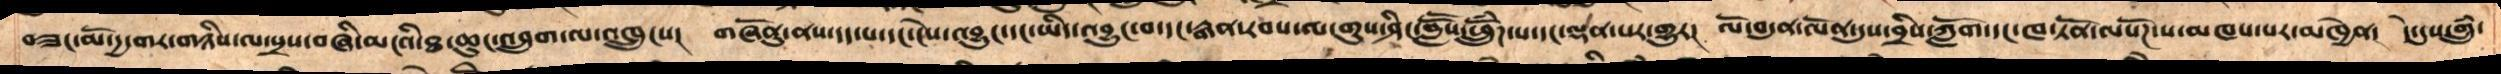བཟང་མོ་དྱ་གར་གཉིས་ལ་སྲས་བཞི་མངའི་ཐ་ཆུང་འབྲུག་ལ་འཁྲུངས།   གཞོནུ་ནས་དད་པ་དང་ངེས་འབྱུང་དང་ཡིད་འབྱུང་བ་དང་རྒན་རབས་ལ་གུས་ཤིང་བླཽས་ཕྲོུཾཌ་པ་དང་ལྡན་པར་གྱུར།  ལོ་བདུན་ལོན་དུས་བྲིས་ཀློག་དང་ཁ་ཏོན་ལསོཌ་པ་མཁས་པར་མཁྱེན།  དེ་དུས་གྲུཾ་
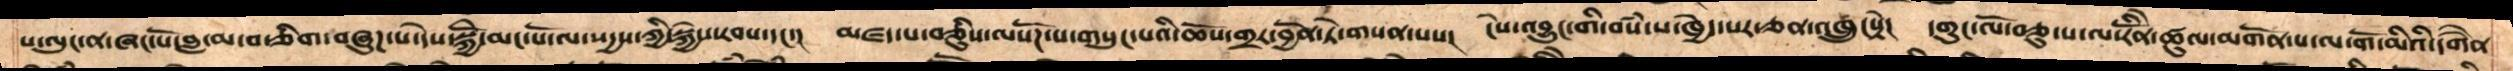པ་ལུང་ན་ཞང་པོ་བླ་མ་བ་ཅིག་བཞུཌ་པ་དེས་སྐྱེོ་མང་པོ་ལ་སདྱས་ཀྱི་སྐྱེས་རབས་དང་།    མཛད་པ་བཅིུས་ལསོཌ་པ་གསུང་པའི་ཆོས་གྲར་བྱོན་ཏེ་གསན་པས།   ངེས་འབྱུང་གི་བསཾ་པ་ཁྱེད་སར་ཅན་འཁྲུངསྟེ།  དགུང་ལོ་བཅུ་པ་ལ་རིནོེ་ཚུལ་མགོན་པ་ལ་གོ་མིའི་དགཻན
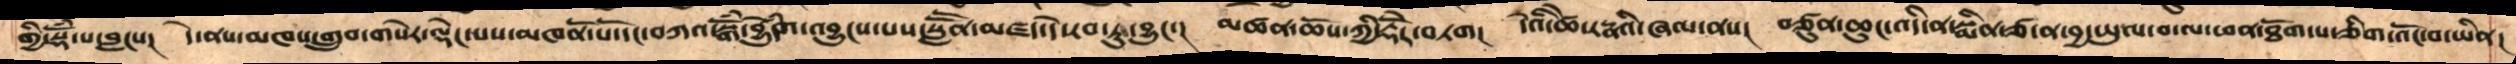གྱི་སྡོཾ་པ་བླངས།   དེ་ནས་མཁས་གྲུབ་གསེར་ལྡེང་པས་མཁོན་པོ་དང་བཀའ་སྒོཾ་བྱེུདའཾ་འབྱུངས་པས་སླཽན་མཛད་དེ་རབ་ཏུ་བྱུང་།  མཚན་ཆོས་ཀྱི་རྡོེར་བཏག།  དེའི་ཚེ་རཏྣའི་ཞལ་ནས།  བཙུན་ཆུང་འདི་ན་སྨིན་ཙ་ན་བྱ་ཡུལ་བ་ལ་ཕན་ཐོག་པ་ཅིག་འོང་བ་ཡིན།
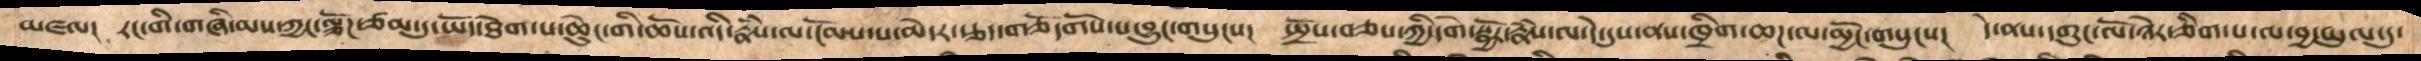མཛལ།   རང་གི་གཞི་མས་ཀྱང་ལྕོཌ་ཙམ་དུ་ཡོད་ཐེག་པ་ཆེུང་གི་ཆོས་འདི་རྣཾས་ལ་ངོམས་པ་མེདར་རྩད་གཅོདགོས་པ་བྱུང་གསུངས།    སྤྲོས་བཅས་ཀྱི་དགེ་སྦྱོར་རྣཾས་ལ་དེ་དུས་ནས་ཁྲིག་ཆཌ་ལ་མྱོང་གསུངས།   དེ་ནས་དགུང་ལོ་ཉེར་ཅིག་པ་ལ་བྱ་ཡུལ་དུ་
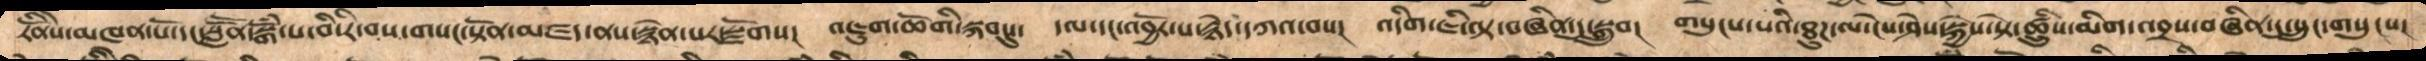རིནོེས་མཁན་པོ་དང་སླཽན་སྒོཾ་པ་བི་རི་བས་གསང་སྟོན་མཛད་ནས་སྙེན་པར་སྫོགས།   འཇུག་ཆོགི་སྐབསུ་   དལ་དང་འབྱོར་པ་རྙེད་དཀའ་བས།   འདིག་ཇི་ལྟ་བཞིན་དུ་སྒྲུབ།  གསུངས་པའི་ཐུཌ་ལ་ངེས་ཤེས་སྐྱེས་སྟེ་ཚྲིུསཾ་མིག་འབྲས་བཞིན་དུ་སྲུང་གསུངས།
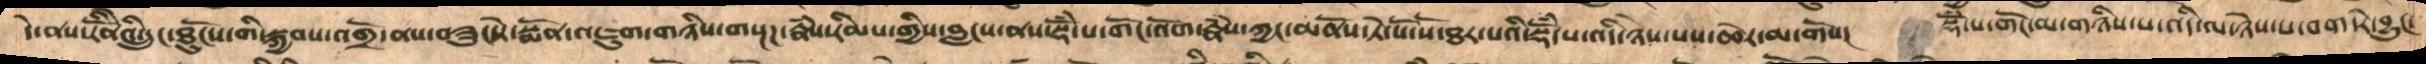དེ་ནས་རིནོེའི་དྲུང་ཐུངོས་གི་སྐྱབས་འགྲོ་ནས་བཟུང་སྟེ་སྨོན་འཇུག་གཉིས་གསྔཌ་རྣཾས་རིམས་གྱིས་བླངས་ནས་སྡོཾ་པ་གོང་འོག་རྣཾས་ཀྱང་མནོས་ཏེ་སོ་སོ་ཐར་པའི་སྡོཾ་པ་འདི་ཉེས་པས་ཆེར་མ་གོས།    སྡོཾ་པ་གོང་མ་གཉིས་པ་འདི་ལ་ཉེས་པ་བག་རེ་བྱུང་
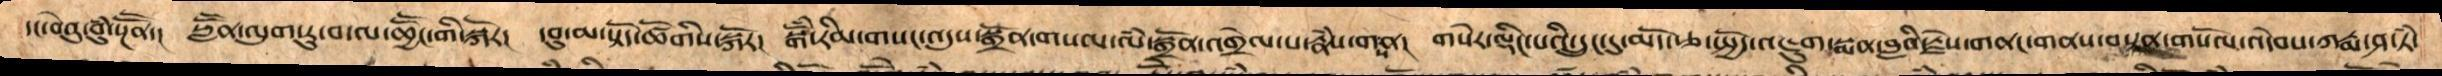དང་བེའུ་བུཾ་སྔཽན་།  སླཽན་ལུག་རུ་བ་ལ་ཆྱཽང་གི་སྐོར།  དབུ་མ་སྟོད་ཚོགིས་སྐོར།  སྒོཾ་རིམ་གསང་འདུས་སྒྲོན་གསལ་ལཾ་སྒྲོན་འགྲེལ་པ་རྣཾས་གསན།  གསེར་ལྡིང་པའི་དྲུང་དུ་མདོ་རྩ་སྤྱོད་འཇུག་སྨན་བླའི་རྗེས་གནང་གནས་བསྟན་གསོལ་འདེབས་ཀརྨ་ཤ་ཏཾ་
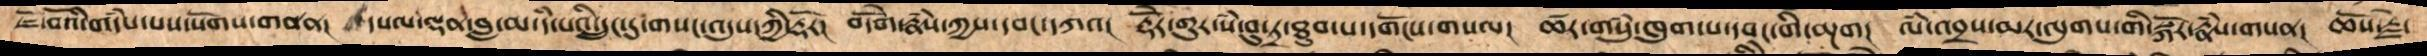ཇོ་བོའི་གདཾས་པས་སོགས་གནན།   དཔལ་ལྡན་བླ་མ་དཾ་པའི་དྲུང་དུ་གསང་འདུས་ཀྱི་རྡོར།   བདོེག་རྣཾས་ཀྱས་དབངདཀའ།  རྡོེར་གུར་སཾ་བུ་ཏྲ་ཐུབ་པ་དགོངས་གསལ།  ཚར་གསུཾ་ཁུག་པ་དབང་གི་མྔག།  ལཾ་འབྲས་མར་ལུགས་གི་སྐོར་རྣཾས་གསན།   ཆོས་རྗེ་
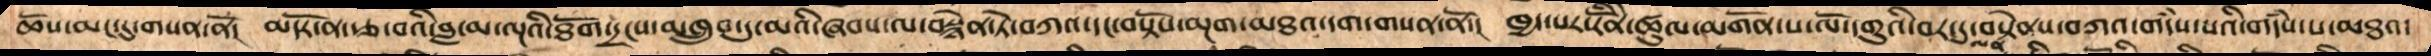ཆོས་མང་དུ་གསན་ནོ།   མདོར་ན་རྩ་བའི་བླ་མ་ལྔའི་ཐོག་དྲངས་མཁྲུབ་དུ་མའི་ཞབས་ལ་བསྙེན་ཏེ་བཀའ་དང་བསྟོས་མྔག་མཐའ་དག་གསན་ནོ་།   ཁྱད་པར་རིནོེ་ཚུལ་མགོན་ས་ལོ་དགུའི་བར་དུ་བསྟེནས་བཀའ་གདཾས་པའི་གདཾས་པ་མཐའ་
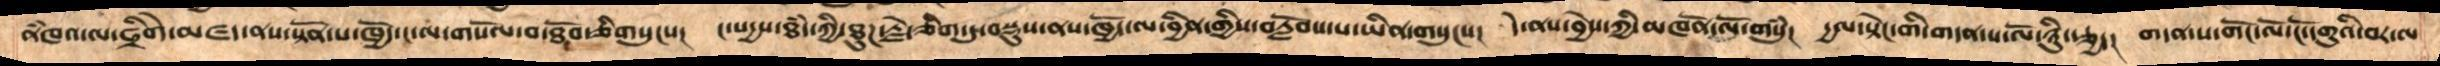ནཾཁའ་ལ་ཧྲིགེ་མཛད་ནས་སྟོན་པ་ཁྱོད་ང་ལ་གསོལ་བ་ཐོབ་ཅིགསུངས།   ང་སདྱས་ཐཾད་ཀྱི་ཐུཌ་རྗེ་ཅིག་དུ་བསྡུས་ནས་ཁྱོད་ལ་བྱིན་གྱིས་བརློབས་པ་ཡིན་གསུངས།   དེ་ནས་བྱེས་ཀྱི་མཁོན་ལོ་གསུཾ།  དྱལ་སྟེང་གི་གདན་ས་ལོ་ཉིུ་རྩྱད།  གདན་ས་གོང་ལོ་ངོ་དགུའི་བར་ལ
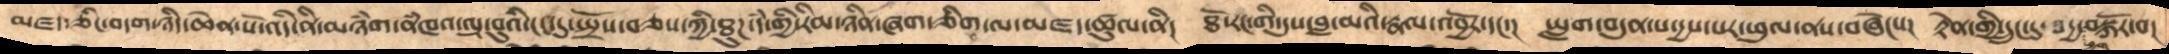མཛད་ཅིང་བདག་ཉིད་ཆེན་པོ་འདི་ནི་མཉཾག་ནཾཁའ་ལྟ་བུའི་ངང་དུ་སྤྲོས་བཅས་ཀྱི་ཐུཌ་དཾ་གྱི་རིམ་ཉིན་ཞག་ཅིག་ལ་མཛད་ཚུལ་ནི།   ཐོ་རང་གི་དུས་བླ་མའི་རྣལ་འབྱོར་དང་།  ཡླག་བདུན་པ་དྱས་པར་ཕུལ་ནས་བཞེངས།   རྟེན་གྱི་དྲུང་དུ་བདྱ་བསྐོར་བ།
